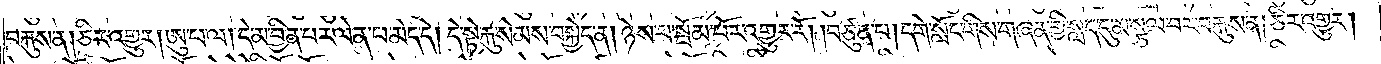བརྐུས་ན། ཅིར་འགྱུར། ཨུ་པ་ལ། དེ་མ་བྱིན་པར་ལེན་པ་མེད་དེ། དེ་སྟེ་རྐུ་སེམས་བསྐྱེད་ན། ཉེས་པ་སྦོམ་པོར་འགྱུར་རོ། །བཙུན་པ། དགེ་སློང་གིས་གཞན་གྱི་སླད་དུ་མ་སྩལ་བར་བརྐུས་ན། ཅིར་འགྱུར།
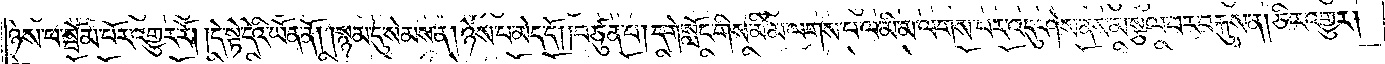ཉེས་པ་སྦོམ་པོར་འགྱུར་རོ། །དེ་སྟེ་དེའི་ཡོན་ནོ། །སྙམ་དུ་སེམས་ན། ཉེས་པ་མེད་དོ། །བཙུན་པ། དགེ་སློང་གིས་མི་མ་ལགས་པ་ལ་མི་མ་ལགས་པར་འདུ་ཤེས་ནས་མ་སྩལ་བར་བརྐུས་ན། ཅིར་འགྱུར།
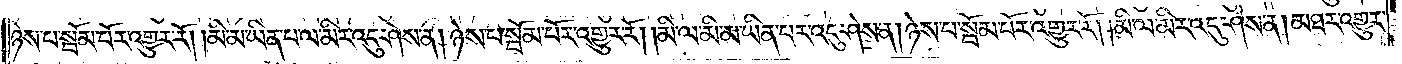ཉེས་པ་སྦོམ་པོར་འགྱུར་རོ། །མི་མ་ཡིན་པ་ལ་མིར་འདུ་ཤེས་ན། ཉེས་པ་སྦོམ་པོར་འགྱུར་རོ། །མི་ལ་མི་མ་ཡིན་པར་འདུ་ཤེས་ན། ཉེས་པ་སྦོམ་པོར་འགྱུར་རོ། །མི་ལ་མིར་འདུ་ཤེས་ན། མཐར་འགྱུར་
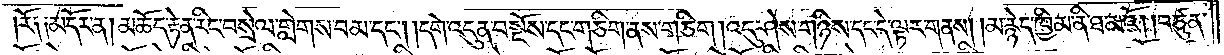།རོ༑ ༑མདོར་ན། མཆོད་རྟེན་རིང་བསྲེལ་གླེགས་བམ་དང༌། དགེ་འདུན་བསྔོས་དང་གཅིག་ནས་གཅིག །འདུ་ཤེས་གཉིས་དང་དེ་ལྟར་གནས། མ་རྙེད་ཁྱིམ་ནི་ཐ་མའོ། །བཙུན་
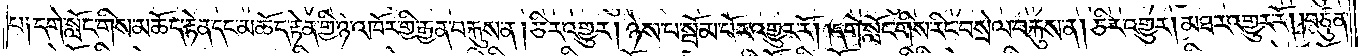པ༑ དགེ་སློང་གིས་མཆོད་རྟེན་དང་མཆོད་རྟེན་གྱི་ཉེ་འཁོར་གྱི་རྒྱན་བརྐུས་ན། ཅིར་འགྱུར། ཉེས་པ་སྦོམ་པོར་འགྱུར་རོ། །དགེ་སློང་གིས་རིང་བསྲེལ་བརྐུས་ན། ཅིར་འགྱུར། མཐར་འགྱུར་རོ། །བཙུན་
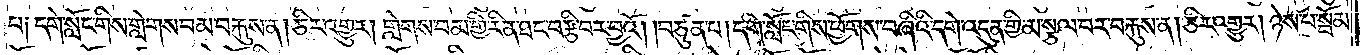པ༑ དགེ་སློང་གིས་གླེགས་བམ་བརྐུས་ན། ཅིར་འགྱུར། གླེགས་བམ་གྱི་རིན་ཐང་བརྩི་བར་བྱའོ། །བཙུན་པ། དགེ་སློང་གིས་ཕྱོགས་བཞིའི་དགེ་འདུན་གྱི་མ་སྩལ་བར་བརྐུས་ན། ཅིར་འགྱུར། ཉེས་པ་སྦོམ་
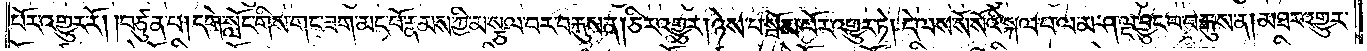པོར་འགྱུར་རོ། །བཙུན་པ། དགེ་སློང་གིས་གང་ཟག་མང་པོ་རྣམས་ཀྱི་མ་སྩལ་བར་བརྐུས་ན། ཅིར་འགྱུར། ཉེས་པ་སྦོམ་པོར་འགྱུར་ཏེ། དེ་ལས་སོ་སོའི་སྐལ་པ་ལ་མ་ཤ་ལྔ་བྱུང་བ་བརྐུས་ན། མཐར་འགྱུར་
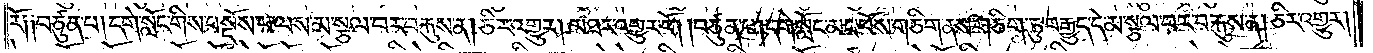རོ༑ ༑བཙུན་པ། དགེ་སློང་གིས་བསྔོས་པ་ལས་མ་སྩལ་བར་བརྐུས་ན། ཅིར་འགྱུར། མཐར་འགྱུར་རོ། །བཙུན་པ། དགེ་སློང་མང་པོས་གཅིག་ནས་གཅིག་ཏུ་བརྒྱུད་དེ་མ་སྩལ་བར་བརྐུས་ན། ཅིར་འགྱུར།
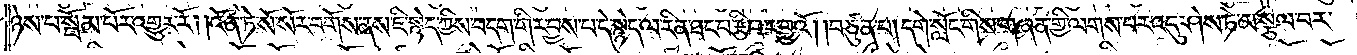ཉེས་པ་སྦོམ་པོར་འགྱུར་རོ། །འོན་ཏེ་སོ་སོར་བགོས་ནས་ཇི་སྙེད་ཀྱིས་བདག་གིར་བྱས་པ་དེ་སྙེད་ལ་རིན་ཐང་བརྩི་བར་བྱའོ། །བཙུན་པ། དགེ་སློང་གིས་གཞན་གྱི་ལགས་པར་འདུ་ཤེས་ཏེ་མ་སྩལ་བར་
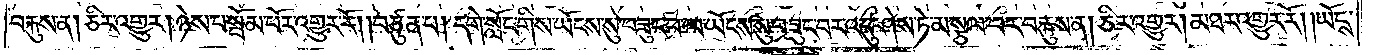བརྐུས་ན། ཅིར་འགྱུར། ཉེས་པ་སྦོམ་པོར་འགྱུར་རོ། །བཙུན་པ། དགེ་སློང་གིས་ཡོངས་སུ་བཟུང་བ་ལ་ཡོངས་སུ་བཟུང་བར་འདུ་ཤེས་ཏེ་མ་སྩལ་བར་བརྐུས་ན། ཅིར་འགྱུར། མཐར་འགྱུར་རོ། །ཡོངས་
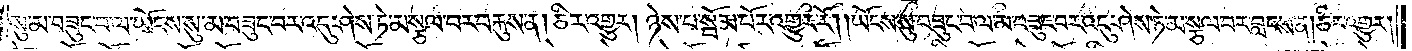སུ་མ་བཟུང་བ་ལ་ཡོངས་སུ་མ་བཟུང་བར་འདུ་ཤེས་ཏེ་མ་སྩལ་བར་བརྐུས་ན། ཅིར་འགྱུར། ཉེས་པ་སྦོམ་པོར་འགྱུར་རོ། །ཡོངས་སུ་བཟུང་བ་ལ་མ་བཟུང་བར་འདུ་ཤེས་ཏེ་མ་སྩལ་བར་བླངས་ན། ཅིར་འགྱུར།
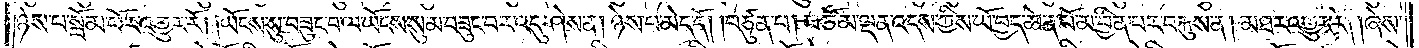ཉེས་པ་སྦོམ་པོར་འགྱུར་རོ། །ཡོངས་སུ་བཟུང་བ་ལ་ཡོངས་སུ་མ་བཟུང་བར་འདུ་ཤེས་ན། ཉེས་པ་མེད་དོ། །བཙུན་པ། བཅོམ་ལྡན་འདས་ཀྱིས་ཡོ་བྱད་ཆེན་པོ་མ་བྱིན་པར་བརྐུས་ན། མཐའ་འགྱུར་རོ། །ཞེས་
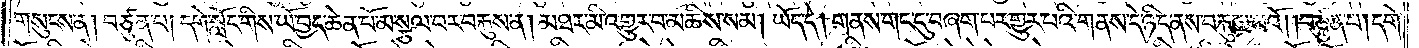གསུངས་ན། བཙུན་པ། དགེ་སློང་གིས་ཡོ་བྱད་ཆེན་པོ་མ་སྩལ་བར་བརྐུས་ན། མཐར་མི་འགྱུར་བ་མཆིས་སམ། ཡོད་དེ། གནས་གང་དུ་བཞག་པར་གྱུར་པའི་གནས་དེ་ཉིད་ནས་བརྐུས་པའོ། །བཙུན་པ། དགེ་
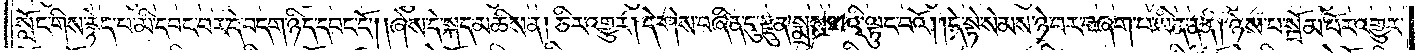སློང་གིས་རྙེད་པ་མི་དབང་བར་དེ་བདག་ཉིད་དབང་ངོ༌། །ཞེས་དེ་སྐད་མཆིས་ན། ཅིར་འགྱུར། དེ་ཤེས་བཞིན་དུ་རྫུན་སྨྲས་པའི་ལྟུང་བའོ། །དེ་སྟེ་སེམས་ཉེ་བར་བཞག་པ་ཡིན་ན་ནི། ཉེས་པ་སྦོམ་པོར་འགྱུར་
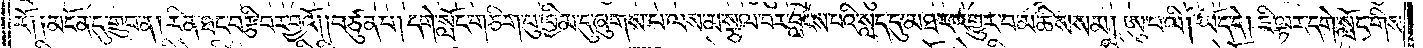རོ༑ ༑མངོན་དུ་གྲུབ་ན། རིན་ཐང་བརྩི་བར་བྱའོ། །བཙུན་པ། དགེ་སློང་གཅིག་པུ་ཁྱིམ་དུ་ཞུགས་པ་ལས་མ་སྩལ་བར་བླངས་པའི་སླད་དུ་མཐར་འགྱུར་བ་མཆིས་སམ། ཨུ་པ་ལི། ཡོད་དེ། ཇི་ལྟར་དགེ་སློང་གིས་
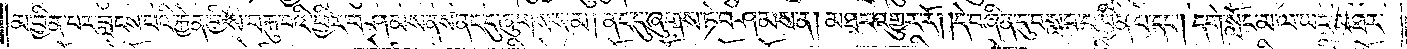མ་བྱིན་པར་བླངས་པའི་རྐྱེན་གྱིས་བརྐུ་བའི་ཕྱིར་བཤམས་ནས་ནང་དུ་ཞུགས་སམ། ནང་དུ་ཞུགས་ཏེ་བཤམས་ན། མཐར་འགྱུར་རོ། །དེ་བཞིན་དུ་བསླབ་པ་བྱིན་པ་དང༌། དགེ་སློང་མ་ལ་ཡང་མཐར་
